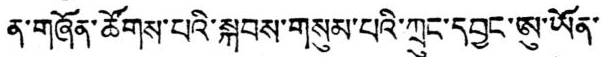ན་གཞོན་ཚོགས་པའི་སྐབས་གསུམ་པའི་ཀྲུང་དབྱང་ཨུ་ཡོན་་
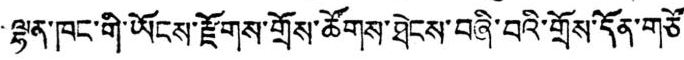ལྷན་ཁང་གི་ཡོངས་རྫོགས་གྲོས་ཚོགས་ཐེངས་བཞི་བའི་གྲོས་དོན་གཙོ་
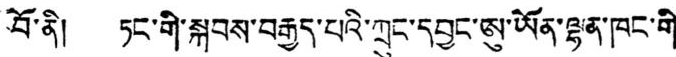བོ་ནི། ཏང་གི་སྐབས་བརྒྱད་པའི་ཀྲུང་དབྱང་ཨུ་ཡོན་ལྷན་ཁང་གི་
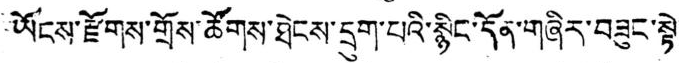ཡོངས་རྫོགས་གྲོས་ཚོགས་ཐེངས་དྲུག་པའི་སྙིང་དོན་གཞིར་བཟུང་སྟེ།
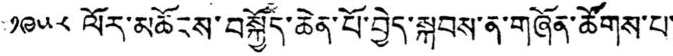༡༩༥༨ ལོར་མཆོངས་བསྐྱོད་ཆེན་པོ་བྱེད་སྐབས་ན་གཞོན་ཚོགས་པ་་
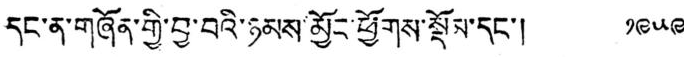དང་ན་གཞོན་གྱི་བྱ་བའི་ཉམས་མྱོང་ཕྱོགས་སྡོམ་དང་། ༡༩༥༩
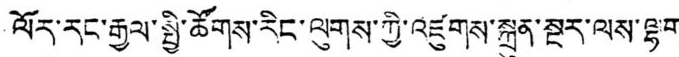ལོར་རང་རྒྱལ་སྤྱི་ཚོགས་རིང་ལུགས་ཀྱི་འཛུགས་སྐྲུན་སྔར་ལས་ལྷག་
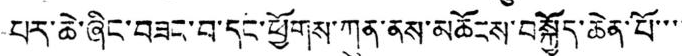པར་ཆེ་ཞིང་བཟང་བ་དང་ཕྱོགས་ཀུན་ནས་མཆོངས་བསྐྱོད་ཆེན་པོ་་་་
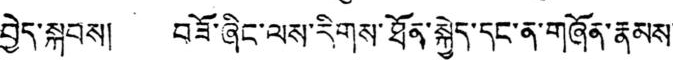བྱེད་སྐབས། བཟོ་ཞིང་ལས་རིགས་ཐོན་སྐྱེད་དང་ན་གཞོན་རྣམས་
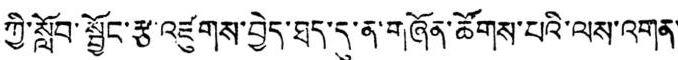ཀྱི་སློབ་སྦྱོང་རྩ་འཛུགས་བྱེད་ཐད་དུ་ན་གཞོན་ཚོགས་པའི་ལས་འགན་
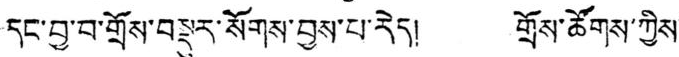དང་བྱ་བ་གྲོས་བསྡུར་སོགས་བྱས་པ་རེད། གྲོས་ཚོགས་ཀྱིས་
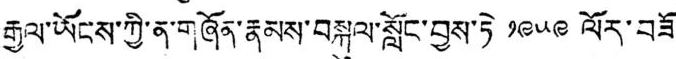རྒྱལ་ཡོངས་ཀྱི་ན་གཞོན་རྣམས་བསྐུལ་སློང་བྱས་ཏེ ༡༩༥༩ ལོར་བཟོ་
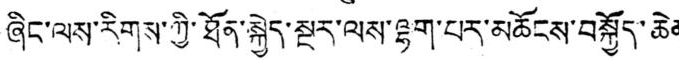ཞིང་ལས་རིགས་ཀྱི་ཐོན་སྐྱེད་སྔར་ལས་ལྷག་པར་མཆོངས་བསྐྱོད་ཆེན
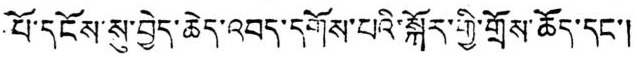པོ་དངོས་སུ་བྱེད་ཆེད་འབད་དགོས་པའི་སྐོར་གྱི་གྲོས་ཆོད་དང་།
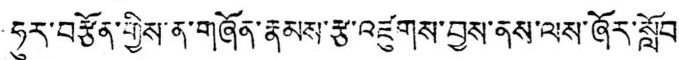ཧུར་བརྩོན་གྱིས་ན་གཞོན་རྣམས་རྩ་འཛུགས་བྱས་ནས་ལས་ཞོར་སློབ་
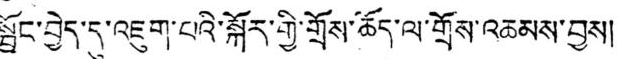སྦྱོང་བྱེད་དུ་འཇུག་པའི་སྐོར་གྱི་གྲོས་ཆོད་ལ་གྲོས་འཆམས་བྱས།
